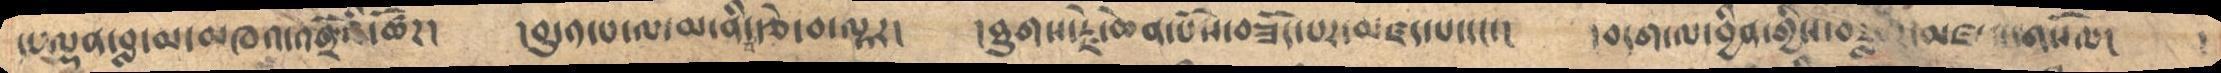ངང་ལྡན་བླ་མ་མཁའ་འགྲོའི་ཚོཌ།   །བུ་༡་པ་ལ་མ་ནི་བརྩེ་བ་ལྟར།  །ཐུགས་རྗེ་ཆེན་པོས་བཟོད་པར་མཛད་པ་དང་།  །བདག་ལ་བྱིན་གྱིས་བརླབས་མཛད་གསོལ།
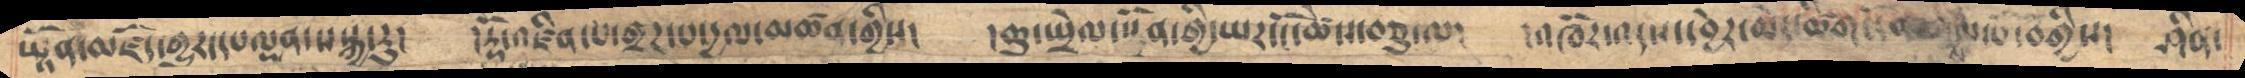ཡྟོན་མཛོད་གྱུར་དཔལྡན་སསྐྱ་རུ།   །རྡོེ་འཛིན་པ་གྲཌ་པ་དྱལ་མཚན་གྱིས།  །ཆུ་སྤྲེལ་སྟོན་གྱི་ཡར་ངོ་ཚེས་བཅུ་ལ།  །འཁོར་འདས་དབྱེར་མེད་ཚིག་དོན་མཁས་པ་བགྱིས།  ཤིན་
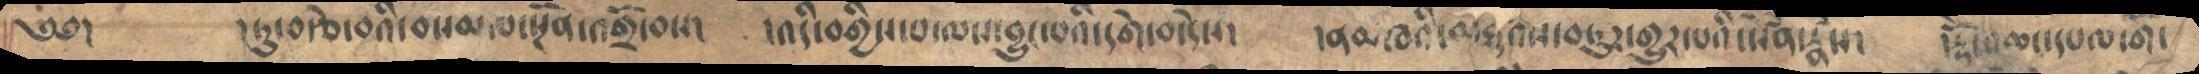༄༅།      །ཏུ་བརྩེ་བའི་བསམ་པ་སྔོན་འགྲོ་བས།    །འདི་བགྱིས་པ་ལས་བྱུང་པའི་དགེ་བ་དེས།    །ནམཁའི་མཐའས་བཏུཌ་གྱུར་པའི་སེཾན་རྣཾས།      །རྡོེ་འཆང་དཔལ་གི་
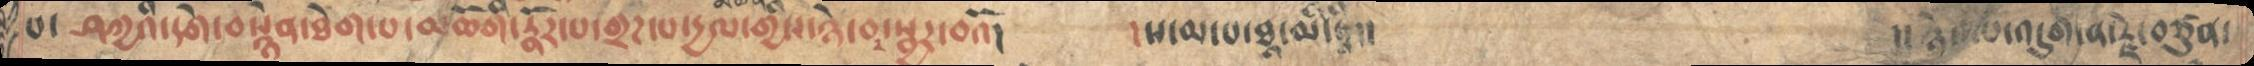པ་  ཤཀྱའི་དགེ་བསྙེན་ཐེག་པ་མཆོགི་རྣོར་པ་གྲཌ་པ་དྱལ་གྱིས་ཉེ་བར་སྦྱར་བའོ།     །ས་མ་པ་ཐ་མི་ཏྭི།།      །།ཉེས་པ་འདུག་ན་རྗེ་བཙུན་
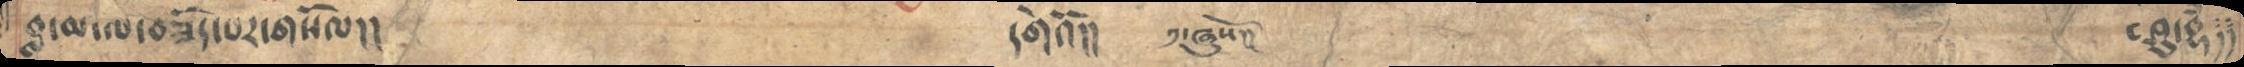བླ་མ་ལ་བཟོད་པར་གསོལ།།                དགེའོ།།      ༡་ཞུཔའོ་          བཤུ་བྷཾ༑༑
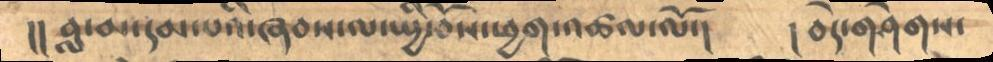།།      བླ་མ་དམ་པའི་ཞབས་ལ་སྤྱི་བོས་ཕྱག་འཚལ་ལོ་།            །  བདེ་གཤེགས་
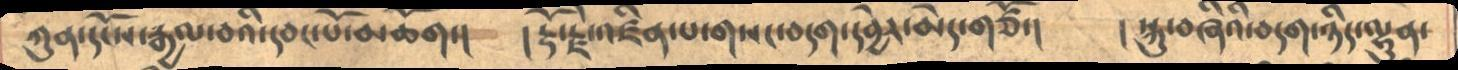ཀུན་དངོས་རྒྱལ་བའི་དབང་པོ་མཆོག་།       ། རྡོ་རྗེ་འཛིན་པ་གསང་བདག་དབྱེར་མེད་གཙོ་།    ། སྐུ་བཞིའི་བདག་ཉིད་ལྷུན་
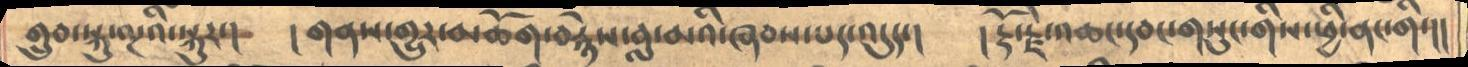གྲུབ་སྐུ་ལྔའི་སྐུར་།     །  གནས་གྱུར་མཆོག་བརྙེས་བླ་མའི་ཞབས་པད་འདུདད།      ། རྡོ་རྗེ་འཆང་དབང་གསུང་གིས་ཕྱི་ནང་གི་།།
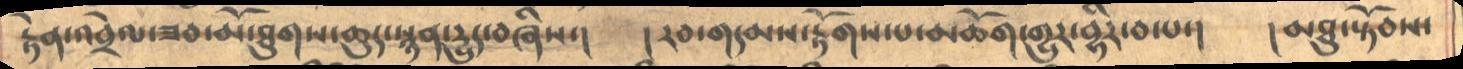རྟེན་འབྲེལ་ཟབ་མོ་ཐུགས་ཆུད་སྙན་དྱུད་བཞིས་།     །རབ་གདམས་རྟོགས་པ་མཆོག་གྱུར་བྷིར་བ་པ་།   །མཐུ་སྟོབས་
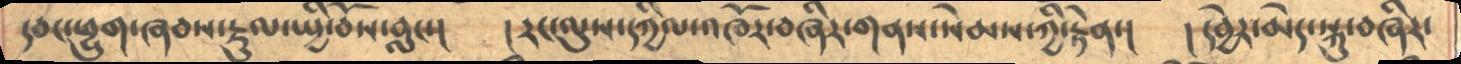དབང་ཕྱུག་ཞབས་རྡུལ་སྤྱི་བོས་བླང་།        །རང་ལུས་དཀྱིལ་འཁོར་བཞིར་གནས་སེམས་ཀྱི་རྟེན་།    ། དབྱེར་མེད་སྐུ་བཞིར་
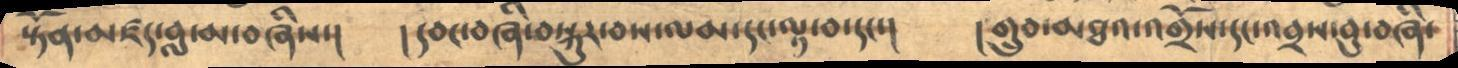སྟོན་མཛད་བླ་མ་བཞིས་།      ། དབང་བཞི་བསྐུར་བས་ལམ་དང་ལྟ་བ་དང་།         ། གྲུབ་མཐའ་འགྲོས་དང་འབྲས་བུ་བཞི་
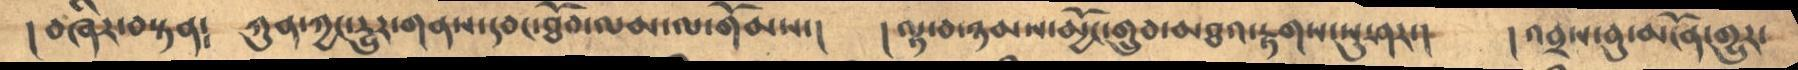།   བཞིར་བསྟན༴      ཀུན་ཀྱང་དྱུར་གནས་དབང་ཐོབ་ལམ་ལ་གོམས་།       ། ལྟ་བ་ཉམས་མྱོང་གྲུབ་མཐའ་རྟགས་སུ་ཤར་།   ། འབྲས་བུ་མངོན་གྱུར་
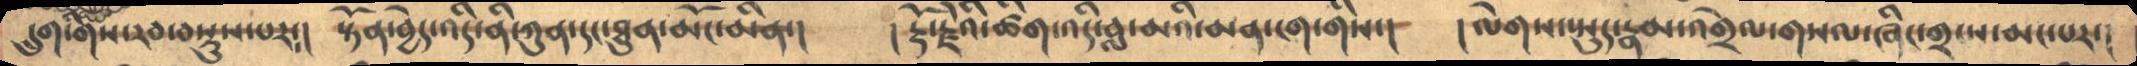དྲུག་གིས་རབ་བསྡུས་པར༴།     སྟོན་བྱེད་འདི་ནི་ཀུན་དང་ཐུན་མོང་མིན་།    ། རྡོ་རྗེའི་ཚིག་འདི་བླ་མའི་མན་ངག་གིས་།    ། ལེགས་སྤུད་རྣམ་འགྲེལ་གསལ་ཞིང་གྲངས་མང་པར་།
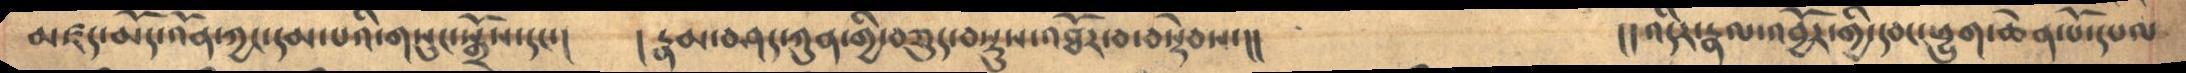མཛད་མོད་འོན་ཀྱང་དམ་པའི་གསུང་སྒྲོས་དང་།      ། རྣམ་བཤད་ཀུན་གྱི་བཅུད་བསྡུས་འཐོར་བ་བསྡེབས་།།          །། འདིར་རྣལ་འབྱོར་གྱི་དབང་ཕྱུག་ཆེན་པོ་དཔལ་
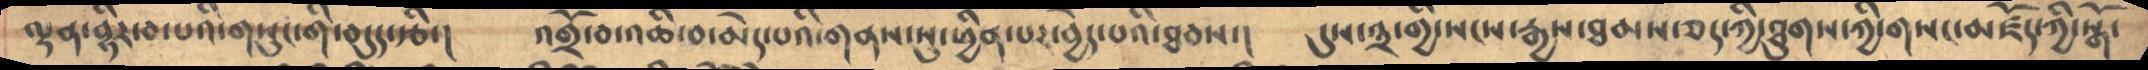ལྡན་བྷིར་བ་པའི་གསུང་གི་བདུད་རྩི་།      འགྲོ་བ་འཆི་བ་མེད་པའི་གནས་སུ་ཕྱིན་པར་བྱེད་པའི་ཐབས་།    དུས་༣་གྱི་སངས་རྒྱས་ཐམས་ཅད་ཀྱི་ཐུགས་ཀྱི་གསང་མཛོད་ཀྱི་སྒོ་
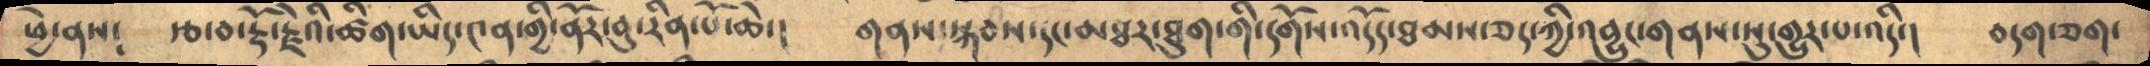ཕྱེ་ནས༴    རྩ་བ་རྡོ་རྗེའི་ཚིག་ཡིད་༤ན་གྱི་ནོར་བུ་རིན་པོ་ཆེ་།        གནས་སྐབས་དང་མཐར་ཐུག་གི་དགོས་འདོད་ཐམས་ཅད་ཀྱི་འབྱུང་གནས་སུ་གྱུར་པ་འདི་།   བདག་ཅག་
